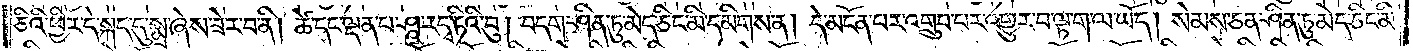ཅིའི་ཕྱིར་དེ་སྐད་དུ་སྨྲ་ཞེས་ཟེར་བ་ནི། ཚེ་དང་ལྡན་པ་ཤཱ་ར་དྭ་ཏིའི་བུ། བདག་ཤིན་ཏུ་མེད་ཅིང་མི་དམིགས་ན། དེ་མངོན་པར་འགྲུབ་པར་འགྱུར་བ་ལྟ་ག་ལ་ཡོད། སེམས་ཅན་ཤིན་ཏུ་མེད་ཅིང་མི་
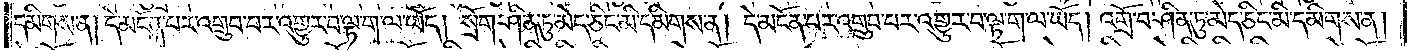དམིགས་ན། དེ་མངོན་པར་འགྲུབ་པར་འགྱུར་བ་ལྟ་ག་ལ་ཡོད། སྲོག་ཤིན་ཏུ་མེད་ཅིང་མི་དམིགས་ན། དེ་མངོན་པར་འགྲུབ་པར་འགྱུར་བ་ལྟ་ག་ལ་ཡོད། འགྲོ་བ་ཤིན་ཏུ་མེད་ཅིང་མི་དམིགས་ན།
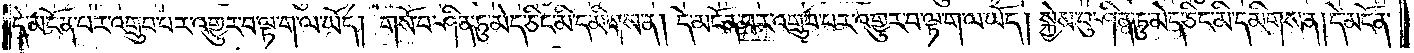དེ་མངོན་པར་འགྲུབ་པར་འགྱུར་པ་ལྟ་ག་ལ་ཡོད། གསོ་བ་ཤིན་ཏུ་མེད་ཅིང་མི་དམིགས་ན། དེ་མངོན་པར་འགྲུབ་པར་འགྱུར་བ་ལྟ་ག་ལ་ཡོད། སྐྱེས་བུ་ཤིན་ཏུ་མེད་ཅིང་མི་དམིགས་ན། དེ་མངོན་
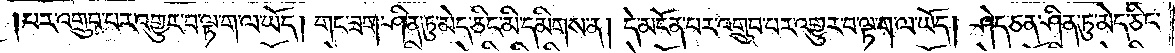པར་འགྲུབ་པར་འགྱུར་བ་ལྟ་ག་ལ་ཡོད། གང་ཟག་ཤིན་ཏུ་མེད་ཅིང་མི་དམིགས་ན། དེ་མངོན་པར་འགྲུབ་པར་འགྱུར་བ་ལྟ་ག་ལ་ཡོད། ཤེད་ཅན་ཤིན་ཏུ་མེད་ཅིང་
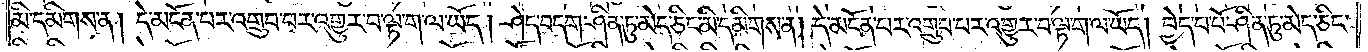མི་དམིགས་ན། དེ་མངོན་པར་འགྲུབ་པར་འགྱུར་བ་ལྟ་ག་ལ་ཡོད། ཤེད་བདག་ཤིན་ཏུ་མེད་ཅིང་མི་དམིགས་ན། དེ་མངོན་པར་འགྲུབ་པར་འགྱུར་བ་ལྟ་ག་ལ་ཡོད། བྱེད་པ་པོ་ཤིན་ཏུ་མེད་ཅིང་
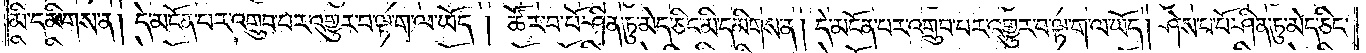མི་དམིགས་ན། དེ་མངོན་པར་འགྲུབ་པར་འགྱུར་བ་ལྟ་ག་ལ་ཡོད། ཚོར་བ་པོ་ཤིན་ཏུ་མེད་ཅིང་མི་དམིགས་ན། དེ་མངོན་པར་འགྲུབ་པར་འགྱུར་པ་ལྟ་ག་ལ་ཡོད། ཤེས་པ་པོ་ཤིན་ཏུ་མེད་ཅིང་
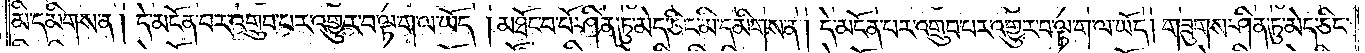མི་དམིགས་ན། དེ་མངོན་པར་འགྲུབ་པར་འགྱུར་བ་ལྟ་ག་ལ་ཡོད། མཐོང་བ་པོ་ཤིན་ཏུ་མེད་ཅིང་མི་དམིགས་ན། དེ་མངོན་པར་འགྲུབ་པར་འགྱུར་བ་ལྟ་ག་ལ་ཡོད། གཟུགས་ཤིན་ཏུ་མེད་ཅིང་
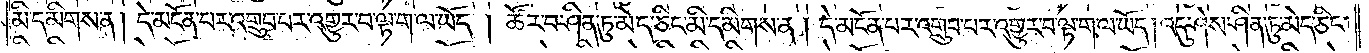མི་དམིགས་ན། དེ་མངོན་པར་འགྲུབ་པར་འགྱུར་བ་ལྟ་ག་ལ་ཡོད། ཚོར་བ་ཤིན་ཏུ་མེད་ཅིང་མི་དམིགས་ན། དེ་མངོན་པར་འགྲུབ་པར་འགྱུར་བ་ལྟ་ག་ལ་ཡོད། འདུ་ཤེས་ཤིན་ཏུ་མེད་ཅིང་
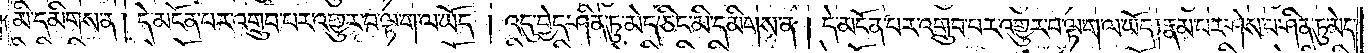མི་དམིགས་ན། དེ་མངོན་པར་འགྲུབ་པར་འགྱུར་བ་ལྟ་ག་ལ་ཡོད། འདུ་བྱེད་ཤིན་ཏུ་མེད་ཅིང་མི་དམིགས་ན། དེ་མངོན་པར་འགྲུབ་པར་འགྱུར་བ་ལྟ་ག་ལ་ཡོད། རྣམ་པར་ཤེས་པ་ཤིན་ཏུ་མེད་ཅིང་
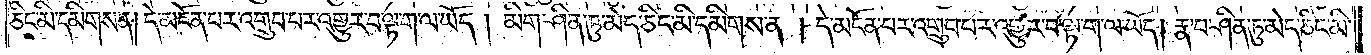མི་དམིགས་ན། དེ་མངོན་པར་འགྲུབ་པར་འགྱུར་བ་ལྟ་ག་ལ་ཡོད། མིག་ཤིན་ཏུ་མེད་ཅིང་མི་དམིགས་ན། དེ་མངོན་པར་འགྲུབ་པར་འགྱུར་བ་ལྟ་ག་ལ་ཡོད། རྣ་བ་ཤིན་ཏུ་མེད་ཅིང་མི་
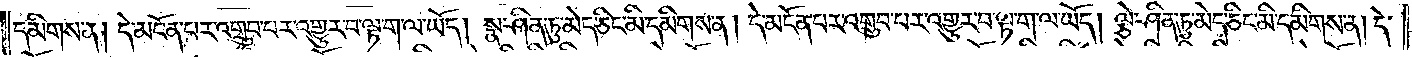དམིགས་ན། དེ་མངོན་པར་འགྲུབ་པར་འགྱུར་བ་ལྟ་ག་ལ་ཡོད། སྣ་ཤིན་ཏུ་མེད་ཅིང་མི་དམིགས་ན། དེ་མངོན་པར་འགྲུབ་པར་འགྱུར་བ་ལྟ་ག་ལ་ཡོད། ལྕེ་ཤིན་ཏུ་མེད་ཅིང་མི་དམིགས་ན། དེ་
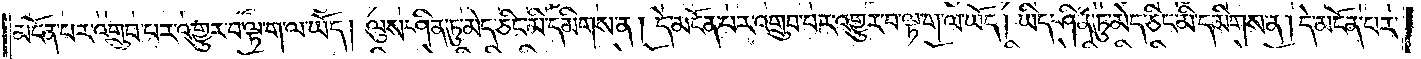མངོན་པར་འགྲུབ་པར་འགྱུར་བ་ལྟ་ག་ལ་ཡོད། ལུས་ཤིན་ཏུ་མེད་ཅིང་མི་དམིགས་ན། དེ་མངོན་པར་འགྲུབ་པར་འགྱུར་བ་ལྟ་ག་ལ་ཡོད། ཡིད་ཤིན་ཏུ་མེད་ཅིང་མི་དམིགས་ན། དེ་མངོན་པར་
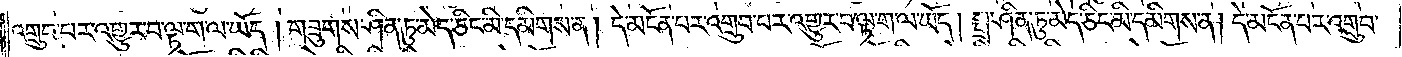འགྲུབ་པར་འགྱུར་བ་ལྟ་ག་ལ་ཡོད། གཟུགས་ཤིན་ཏུ་མེད་ཅིང་མི་དམིགས་ན། དེ་མངོན་པར་འགྲུབ་པར་འགྱུར་བ་ལྟ་ག་ལ་ཡོད། སྒྲ་ཤིན་ཏུ་མེད་ཅིང་མི་དམིགས་ན། དེ་མངོན་པར་འགྲུབ་
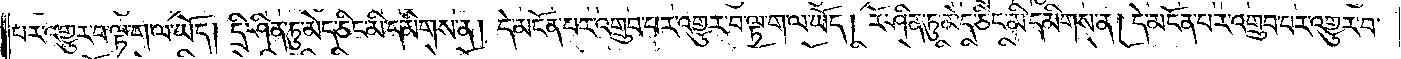པར་འགྱུར་བ་ལྟ་ག་ལ་ཡོད། དྲི་ཤིན་ཏུ་མེད་ཅིང་མི་དམིགས་ན། དེ་མངོན་པར་འགྲུབ་པར་འགྱུར་བ་ལྟ་ག་ལ་ཡོད། རོ་ཤིན་ཏུ་མེད་ཅིང་མི་དམིགས་ན། དེ་མངོན་པར་འགྲུབ་པར་འགྱུར་བ་
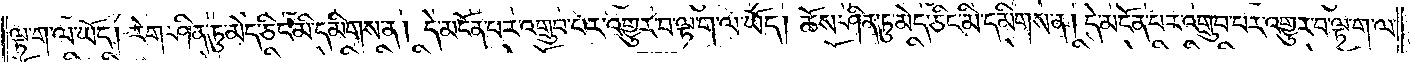ལྟ་ག་ལ་ཡོད། རེག་ཤིན་ཏུ་མེད་ཅིང་མི་དམིགས་ན། དེ་མངོན་པར་འགྲུབ་པར་འགྱུར་བ་ལྟ་ག་ལ་ཡོད། ཆོས་ཤིན་ཏུ་མེད་ཅིང་མི་དམིགས་ན། དེ་མངོན་པར་འགྲུབ་པར་འགྱུར་བ་ལྟ་ག་ལ་
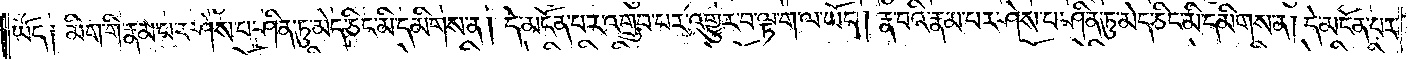ཡོད། མིག་གི་རྣམ་པར་ཤེས་པ་ཤིན་ཏུ་མེད་ཅིང་མི་དམིགས་ན། དེ་མངོན་པར་འགྲུབ་པར་འགྱུར་བ་ལྟ་ག་ལ་ཡོད། རྣ་བའི་རྣམ་པར་ཤེས་པ་ཤིན་ཏུ་མེད་ཅིང་མི་དམིགས་ན། དེ་མངོན་པར་
